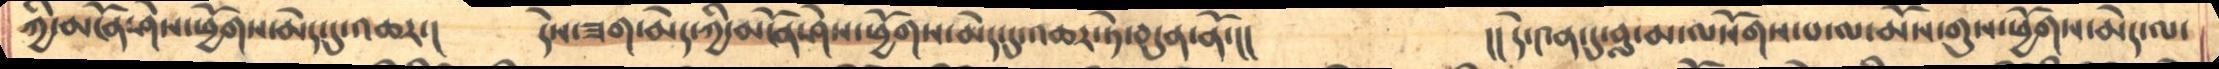ཀྱི་མངོན་ཤེས་ཕྱོགས་མེད་དུ་འཆར་།    དེས་ཟག་མེད་ཀྱི་མངོན་ཤེས་ཕྱོགས་མེད་དུ་འཆར་ཏེ་བདུན་ནོ་།།          །།དེ་༤ན་དུ་བླ་མ་ལསོགས་པ་ལ་མོས་གུས་ཕྱོགས་མེད་ལ་
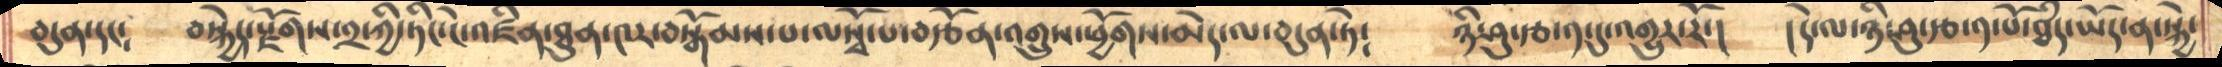བདུན་དང༴   བསྐྱེད་སྗོགས་༢་ཀྱི་ཏེང་ངེ་འཛིན་ཐུན་༤ར་བསྒོམས་པ་ལསྭོ་པ་བརྩོན་འགྲུས་ཕྱོགས་མེད་ལ་བདུན་ཏེ༴    ཉི་ཤུ་རྩ་༡་དུ་འགྱུར་རོ་།    །དེ་ལ་ཉི་ཤུ་རྩ་༡་པོ་ཐཾད་ཡོད་ན་སྐྱེ་
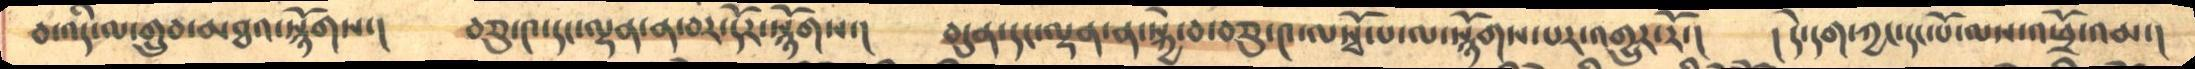བ་འདི་ལ་གྲུབ་མཐའ་སྙོགས་།  བཅུ་༤་དང་ལྡན་ན་བར་དོར་སྙོགས་།    བདུན་དང་ལྡན་ན་སྐྱེ་བ་བཅུ་༤་ལསྭོ་པ་ལ་སྙོགས་པར་འགྱུར་རོ་།    །དེ་དག་ཀྱང་དང་པོ་ལས་འཕྲོ་འམ་།
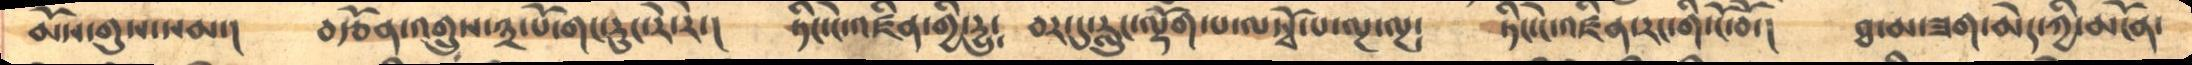མོས་གུས་སམ་།    བརྩོན་འགྲུས་༣་པོ་གང་རུང་རེ་རེ་།     ཏིང་ངེ་འཛིན་གྱི་རུ༴    བར་དུ་རླུང་ལྡོག་པ་ལསྭོ་པ་ལྔ་ལྔ༴    ཏིང་ངེ་འཛིན་རང་གི་ངོ་བོ་།    ཐ་མ་ཟག་མེད་ཀྱི་མངོན་
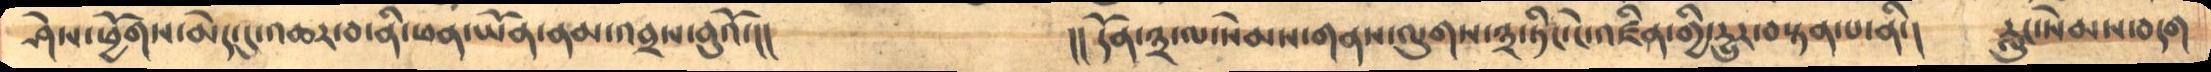ཤེས་ཕྱོགས་མེད་དུ་འཆར་བ་ནི་ཕན་ཡོན་ནམ་འབྲས་བུའོ་།།        །།དོན་༣་ལ་སེམས་གནས་ལུགས་༣་ཏིང་ངེ་འཛིན་གྱི་རྱུར་བསྟན་པ་ནི་།    རླུང་སེམས་བདག་
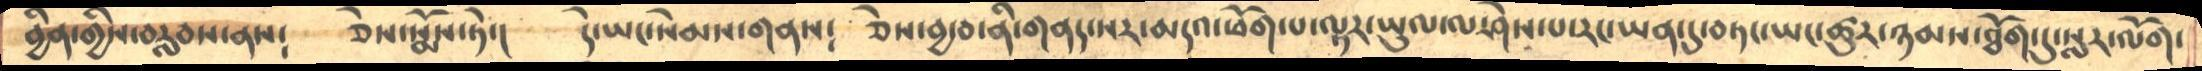བྱིན་གྱི་བརླབས་ནས༴   ཅེས་སྨོས་ཏེ་།   དེ་ཡང་སེམས་གནས༴    ཅེས་བྱ་བ་ནི་གནད་སར་མདའ་ཕོག་པ་ལྟར་ཡུལ་ལ་ཤེས་པ་རང་ཡན་དུ་བཏང་ཡང་ཚུལ་ཉམས་ཐོག་དུ་སླར་ལོག་
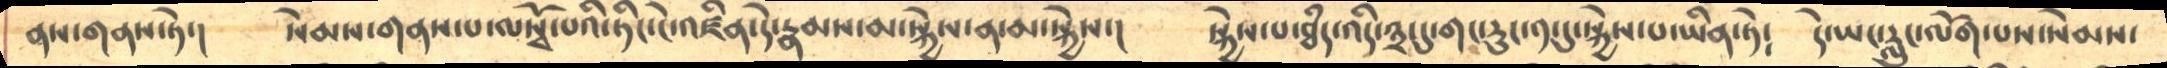ནས་གནས་ཏེ་།    སེམས་གནས་པ་ལསྭོ་པའི་ཏིང་ངེ་འཛིན་དེ་རྣམས་མ་སྐྱེས་ན་མ་སྐྱེས་།   སྐྱེས་པ་ཐཾད་འདི་༣ངདུ་གང་རུང་༡་དུ་སྐྱེས་པ་ཡིན་ཏེ༴   དེ་ཡང་རླུང་ལོག་པས་སེམས་
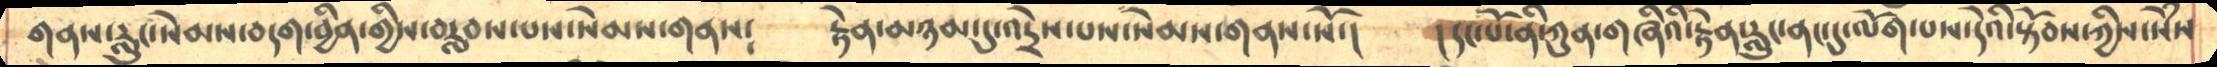གནས་རླུང་སེམས་བདག་བྱིན་གྱིས་བརླབས་པས་སེམས་གནས༴    རྟེན་མཉམ་དུ་འདྲེས་པས་སེམས་གནས་སོ་།    །དང་པོ་ནི་ཀུན་གཞིའི་རྟེན་རླུང་ནང་དུ་ལོག་པས་དེའི་སྟོབས་ཀྱིས་སེཾས
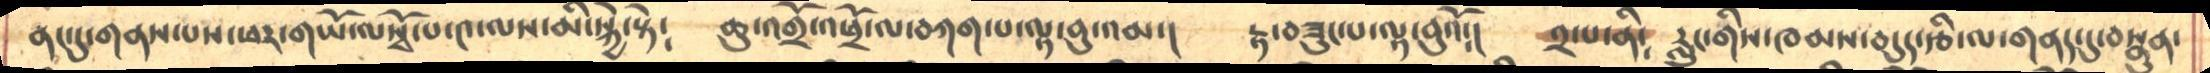ནང་དུ་གནས་པས་ཕར་གཡོ་ལསྭོ་པ་༤་ལས་མི་སྐྱེ་སྟེ༴    ཆུ་འགྲོ་འཕྲོ་ལ་བཀག་པ་ལྟ་བུ་འམ་།    རྟ་བཟུང་པ་ལྟ་བུའོ༴།    ༢་པ་ནི༴   རླུང་གིས་ཁམས་བདུད་རྩི་ལ་གནད་དུ་བསྣུན་
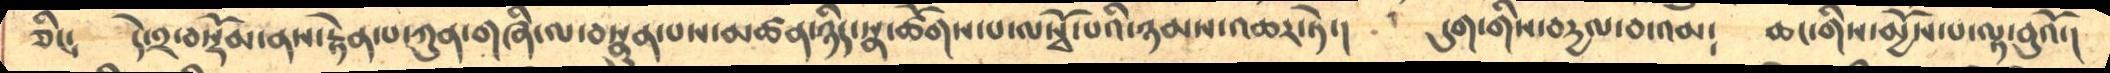ཅིང༴    དེ་༢་བསྡོམ་ནས་རྟེན་པ་ཀུན་གཞི་ལ་བསྣུན་པས་མཚན་ཉིད་སྣ་ཚོགས་པ་ལསྭོ་པའི་ཉམས་འཆར་ཏེ་།     དུག་གིས་བདྱལ་བ་འམ༴   ཆང་གིས་མྱོས་པ་ལྟ་བུའོ་།
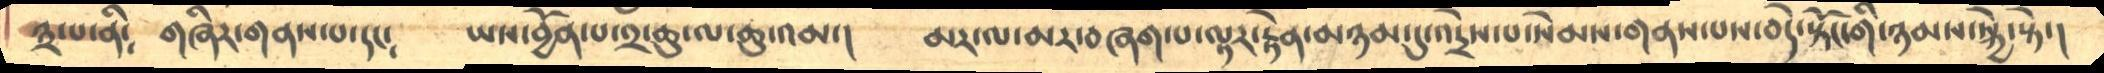༣་པ་ནི༴   གཞིར་གནས་པ་དང༴    ཡས་བྱོན་པ་༢་ཆུ་ལ་ཆུ་འམ་།   མར་ལ་མར་བཞག་པ་ལྟར་རྟེན་མཉམ་དུ་འདྲེས་པ་སེམས་གནས་པས་བདེ་སྟོང་གི་ཉམས་སྐྱེ་སྟེ་།
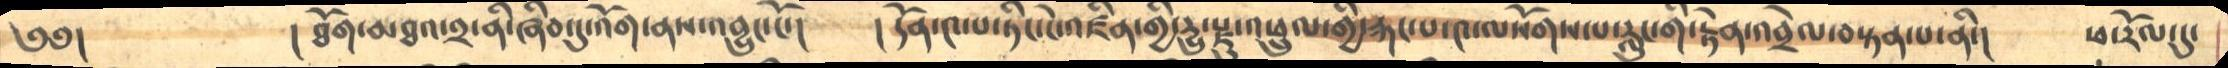༄༅།        །ཐོག་མཐའ་༢་ནི་ཞིབ་དུ་འོག་ནས་འབྱུང་ངོ་།    །དོན་༤་པ་ཏིང་ངེ་འཛིན་གྱི་དྱུ་རྫུ་འཕྲུལ་གྱི་རྐང་པ་༤་ལསོགས་པ་རླུང་གི་རྟེན་འབྲེལ་བསྟན་པ་ནི་།    ཕ་རོལ་དུ་
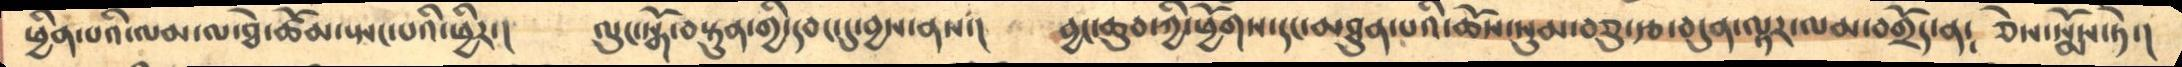ཕྱིན་པའི་ལམ་ལ་ཐེ་ཚོམ་སྤང་པའི་ཕྱིར་།    ལུང་སྒོ་བསྟུན་གྱི་དབང་དུ་བྱས་ནས་།    བྱང་ཆུབ་ཀྱི་ཕྱོགས་དང་མཐུན་པའི་ཆོས་སུམ་བཅུ་རྩ་བདུན་ལྟར་ལམ་བགྲོད་ན༴  ཅེས་སྨོས་ཏེ་།
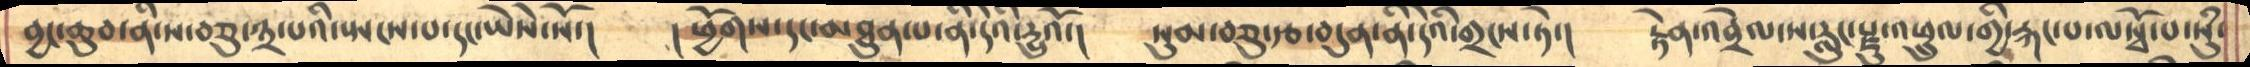བྱང་ཆུབ་ནི་ས་བཅུ་༣་པའི་སྤངས་པ་དང་ཡཻས་སོ་།    །ཕྱོགས་དང་མཐུན་པ་ནི་དེའི་དྱུའོ་།   སུམ་བཅུ་རྩ་བདུན་ནི་དེའི་གྲངས་ཏེ་།   རྟེན་འབྲེལ་ས་རླུང་རྫུ་འཕྲུལ་གྱི་རྐང་པ་ལསྭོ་པ་སུཾ་
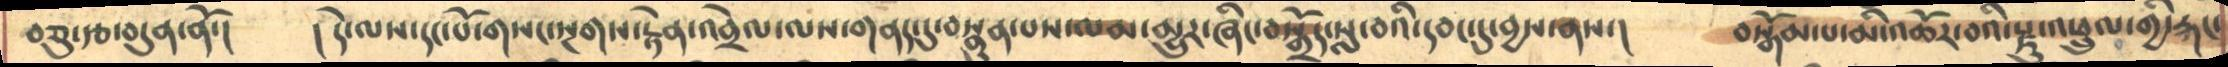བཅུ་རྩ་བདུན་ནོ་།    །དེ་ལས་དང་པོ་གསང་སྔགས་རྟེན་འབྲེལ་ལས་གནད་དུ་བསྣུན་པས་ལམ་མྱུར་ཞིང་བསྒྲོད་སླ་བའི་དབང་དུ་བྱས་ནས་།     བསྒོམ་པ་མི་འཆོར་བའི་རྫུ་འཕྲུལ་གྱི་རྐང་
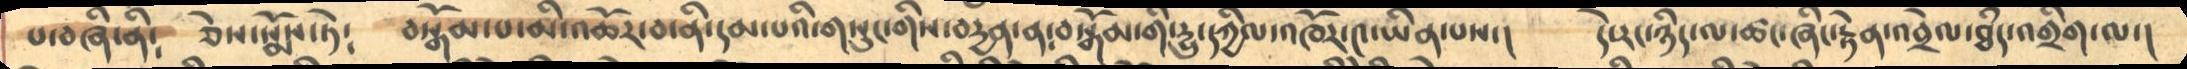པ་བཞི་ནི༴    ཅེས་སྨོས་ཏེ༴    བསྒོམ་པ་མི་འཆོར་བ་ནི་དམ་པའི་གསུང་གི་བདྱན་ན༴བསྒོམ་གི་དྱུ་དཀྱིལ་འཁོར་༤་ཡིན་པས་།   དེ་རང་ཉིད་ལ་ཚང་ཞིང་རྟེན་འབྲེལ་ཐཾད་འགྲིག་ལ་།
